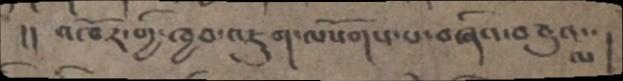།། འཁོར་གྱི་ཁྱབ་འཇུག་ལསོགས་པ་བཞིའ་བཅུའ་ལ།
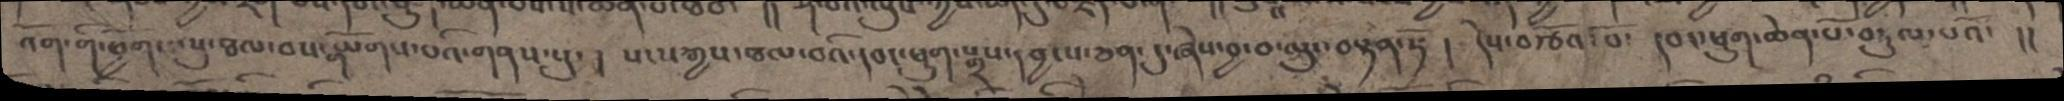འོག་གི་ཕྱོགས་སུ་ཐལ་བས་གཡོགས་པའི་གནས་སུ་། སངས་རྒྱས་ཐལ་བའི་དབང་ཕྱུག་སྒྲས་དབྱངས་ཅན་དུ་ཞེས་བྱ་བ་ལུང་བསྟན་ཏོ་། དེས་བརྩོན་པོ་དབང་ཕྱུག་ཆེན་པ་བཏུལ་པའོ་ །།
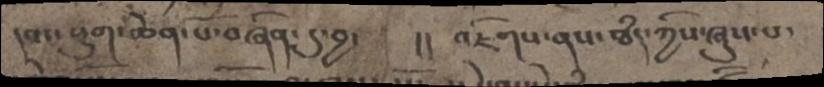དབང་ཕྱུག་ཆེན་པོ་བཞིན་དུ་བྱ་ །། འཇིགས་ནས་ཐཾད་ཀྱིས་ཞུས་པ་
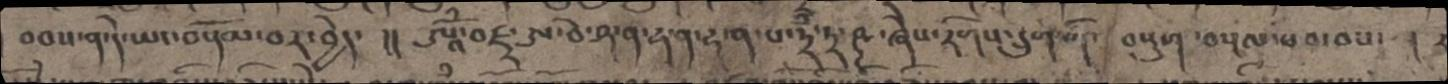བཅས་ན་དེ་ཡང་བསྡོམ་བར་བྱེད་ །། ཨཱོྃ་བཛྲ་ཨ་བེ་ཤ་ན་ཧ་ན་ཧ་ན་པ་ཏྲྃ་ཏྲ་ཥྜ་ཞེས་རིགས་དྲུག་གོ་  བསྡུག་བསྔལ་ཕབ་བས་ ། ར
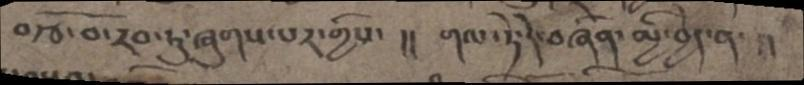བརྩོ་བོ་རབ་ཏུ་ཞུགས་པར་གྱིས་ །། གལ་ཏེ་དེ་བཞིན་མྱི་བྱེད་ན་ །།
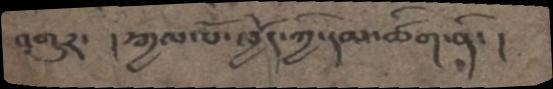འགྱུར་  ། རྒྱལ་པོ་ཁྱོད་ཀྱི་དམ་ཚིག་ནི་ །
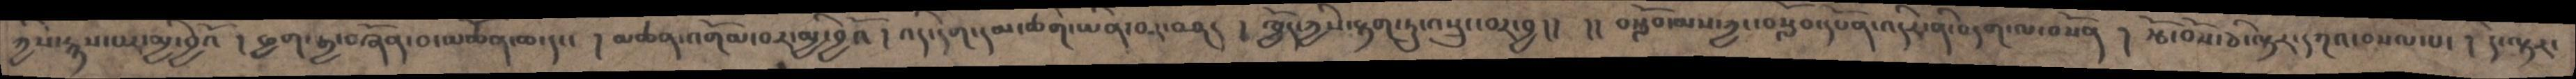ཀྱིས་རྙས་པར་མྱི་བྱའོ་  ། ཕྱག་རྒྱ་བཞོན་བ་མཚོན་ཆ་དང་  ། མཆན་འགོམ་བར་མྱི་བྱའོ ། འདི་དག་དམ་ཚིག་ཡིན་བར་བཤད ། ཁྱོད་ཀྱིས་རྟག་ཏུ་བསྲུང་བར་བྱ །།  །།བསློབ་མས་ཀྱང་བསློབ་དཔོན་འདིར་ནི་བདག་ལ་བསོན ། རྩོ་བོས་ཅི་ལྟར་དཀའ་བསལ་པ་ ། དེ་ལྟར་
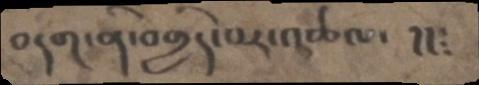བདག་ནི་བགྱིད་པར་འཚལ་  །།
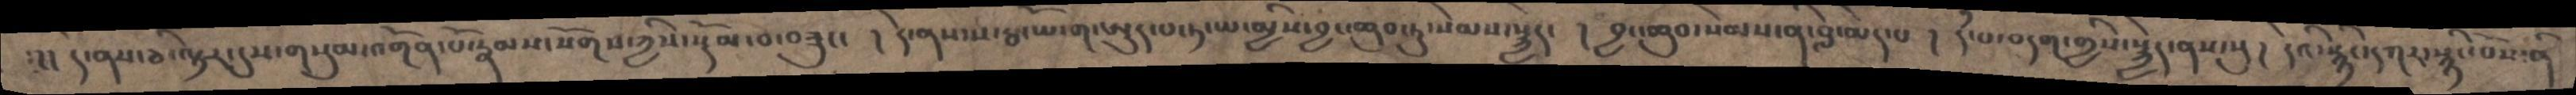ཿ  །། དེ་ནས་ཅི་ལྟར་དུས་གསུམ་འགོན་པོ་རྣམས་སོགས་ཀྱིས་སྡོམ་བ་བཟུང་  ། དེ་ནས་ས་རྩ་ཡོ་ག་ཨུད་པ་ཏ་ཡ་མྱིས་བྱང་ཆུབ་ཏུ་སེམས་སྐྱེད་  །བྱང་ཆུབ་སེམས་ནི་བླ་མེད་པ  ། དཾ་པ་བདག་གྱིས་སྐྱེད་ནས་སུ ། དེའི་སྙིང་དཀར་སྙིང་བོས་ནི
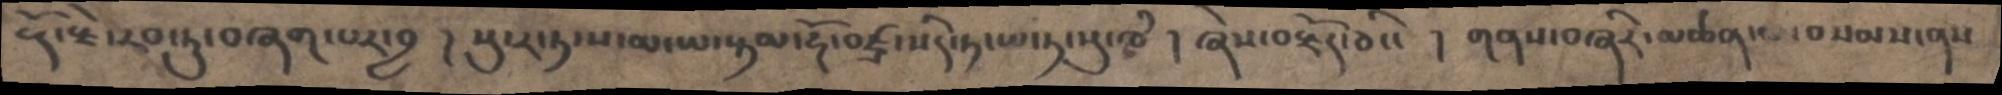རྡོ་རྗེ་རབ་ཏུ་བཞག་པར་བྱ ། སུ་ར་ཏ་ས་མ་ཡ་སྟམ་ཧོ་བཛྲ་སིར་ཏ་ཡ་ཏ་སུ་ཁཾ ། ཞེས་བརྗོད་ཅིང་ ། གནས་བཞིར་མཚན་པ་བསམས་ནས་
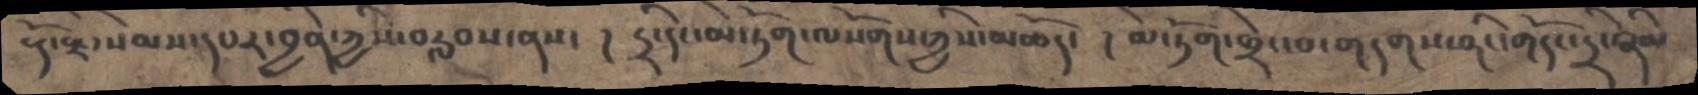རྡོ་རྗེ་སེམས་དཔར་བྱིན་ཀྱིས་བརླབས་ནས་  ། དྲི་དང་མེ་ཏོག་ལསོགས་ཀྱིས་མཆོད་  ། མེ་ཏོག་ཕྲེང་བ་གདགས་ཉིད་གདོང་དྲི་ཞིམ
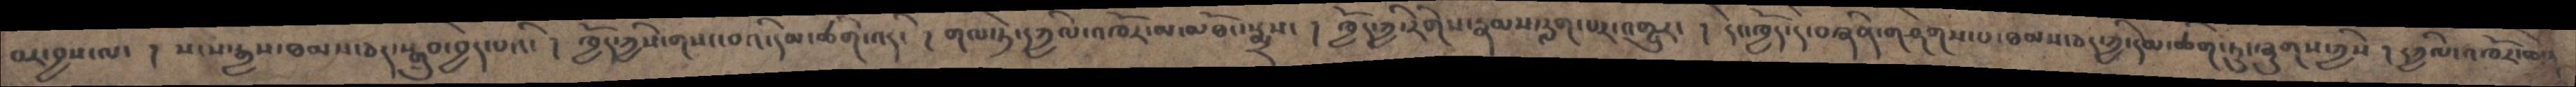བར་བྱས་ལ་ ། སངས་རྒྱས་ཐམས་ཅད་སྒྲུབ་བྱེད་པའི་ ། ཁྱོད་ཀྱིས་གསང་བའི་དམ་ཚིག་འདི་ ། གལ་ཏེ་དཀྱིལ་འཁོར་མ་མཐོང་སྨྲས་ ། ཁྱོད་ཀྱི་རིགས་རྣམས་རླག་པར་འགྱུར་ ། དེང་ཁྱོད་དེ་བཞིན་གཤེགས་པ་ཐམས་ཅད་ཀྱི་དམ་ཚིག་ཏུ་ཞུགས་ཀྱིས ། དཀྱིལ་འཁོར་ཆེན
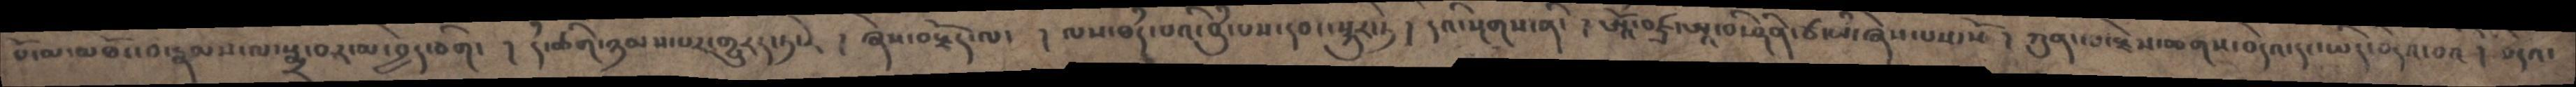པོ་ལ་མཐོང་བ་རྣམས་ལ་སྨྲ་བར་མ་བྱེད་ཅིག་ ། དཾ་ཚིག་ཉམས་པར་གྱུརད་ཏ་རེ ། ཞེས་བརྗོད་ལ་ ། ལས་ཐཾད་པའི་བུཾ་པས་དབང་སྐུར་ཏེ ། དེའི་སྔགས་ནི་ ། ཨཱོྃ་བཛྲ་ཨཱ་བི་ཤིནི་ཙ་མི་ཞེས་པས་སོ ། ཀུན་ལ་རྗེས་ཆགས་བདེའ་དང་ཡིད་བདེའ་བའི ། བདེའ་
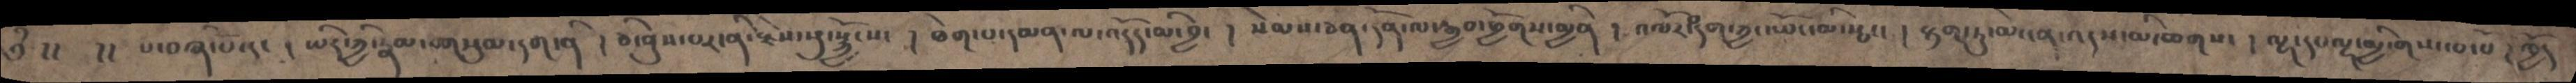༄ྃ །།  །། པ་བཞི་པོ་དང ། ཡིད་ཀྱི་རྣམ་གསུམ་དག་ནི ། ཅི་ནུས་པར་ནི་རྗེས་སུ་སྐྱོངས་ ། ཐེག་པ་དམན་ལ་འདོད་མི་བྱ་ ། སེམས་ཅན་དོན་ལ་རྒྱབ་ཕྱོགས་མྱིན ། འཁོར་བ་དག་ཀྱང་ཡོང་མི་སྤང་ ། རྟག་ཏུ་མེ་ངན་འདས་མི་ཆགས་ ། ལྷ་དང་ལྷ་མྱི་གསང་པ་པོ ། ཁྱོད
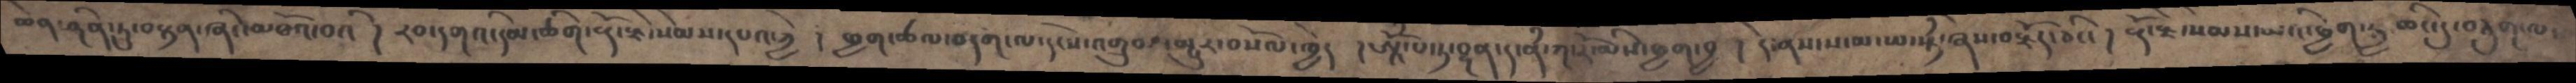ཆེན་ཤིན་ཏུ་བསྟན་ཞིང་མཐོའ་བའི ། རབ་དགའི་དམ་ཚིག་རྡོ་རྗེ་སེམས་དཔའ་ཀྱེ ། ཕྱག་ཚལ་བདག་ལ་དངོས་འགྲུབ་མྱུར་བསོལ་ཁྱེད ། ཨཱོྃ་པ་ཏ་བྷན་ད་ནི་ཀ་རོ་མའི་ཕྱག་བྱ ། དེ་ནས་ས་མ་ཡ་སྟཾ་ཞེས་བརྗོད་ཅིང་ ། རྡོ་རྗེ་སེམས་དཔའི་ཕྱག་རྒྱ་ཆིང་དུ་བཅུག་ལ་
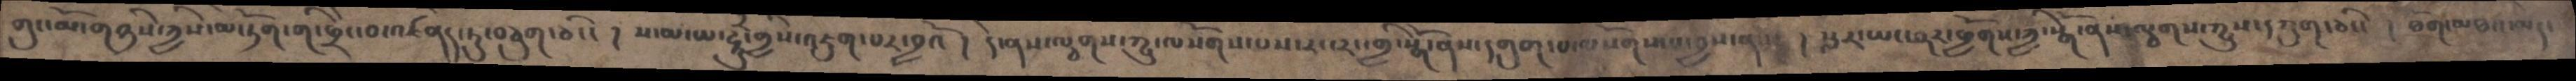གུང་མོ་གཉིས་ཀྱིས་མེ་ཏོག་གི་ཕྲེང་བ་འཛིནད་ཏུ་བཅུག་ཅིང་ ། ས་མ་ཡ་ཧཱུྃ་གྱིས་འཇུག་པར་བྱའོ། དེ་ནས་ལྕགས་ཀྱུ་ལསོགས་པས་རང་རང་གྱི་སྒོ་ནས་དགུག་པ་ལསོགས་པ་བྱས་ནས་།  སླར་ཡང་ཤར་ཕྱོགས་ཀྱི་སྒོ་ནས་ལྕགས་དཀྱུག་ཅིང་ ། ཐོག་མཐའ་མར་
